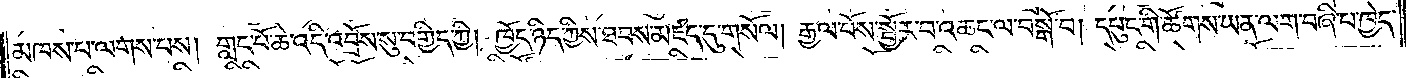མཁས་པ་ལགས་པས། གླང་པོ་ཆེ་འདི་འབྲོས་སུ་བགྱིད་ཀྱི། ཁྱོད་ཉིད་ཀྱིས་ཐབས་མཛད་དུ་གསོལ། རྒྱལ་པོས་སྦྱོར་བ་འཆང་ལ་བསྒོ་བ། དཔུང་གི་ཚོགས་ཡན་ལག་བཞི་པ་ཁྱེད་
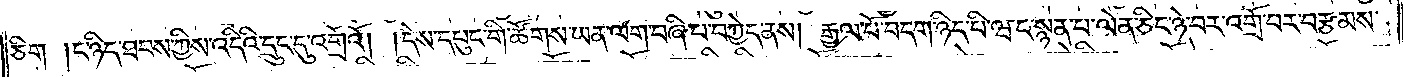ཅིག །ང་ཉིད་ཐབས་ཀྱིས་འདིའི་དྲུང་དུ་འགྲོའོ། །དེས་དཔུང་གི་ཚོགས་ཡན་ལག་བཞི་པ་བཀྱེད་ནས། རྒྱལ་པོ་བདག་ཉིད་པི་ཝང་སྙན་པ་ལེན་ཅིང་ཉེ་བར་འགྲོ་བར་བརྩམས་
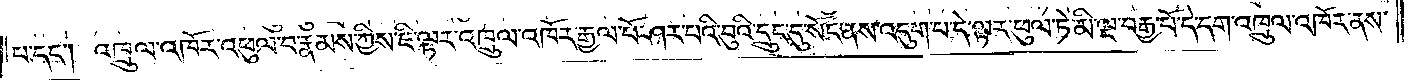པ་དང༌། འཁྲུལ་འཁོར་འཕུལ་བ་རྣམས་ཀྱིས་ཇི་ལྟར་འཁྲུལ་འཁོར་རྒྱལ་པོ་ཤར་པའི་བུའི་དྲུང་དུ་སོང་ནས་འདུག་པ་དེ་ལྟར་ཕུལ་ཏེ་མི་ལྔ་བརྒྱ་པོ་དེ་དག་འཁྲུལ་འཁོར་ནས་
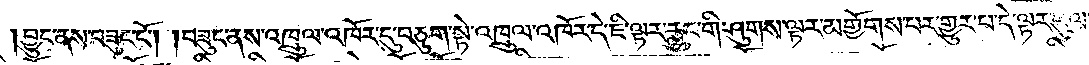བྱུང་ནས་བཟུང་ངོ༌། །བཟུང་ནས་འཁྲུལ་འཁོར་དུ་བཅུག་སྟེ་འཁྲུལ་འཁོར་དེ་ཇི་ལྟར་རླུང་གི་ཤུགས་ལྟར་མགྱོགས་པར་གྱུར་པ་དེ་ལྟར་ཕུལ་
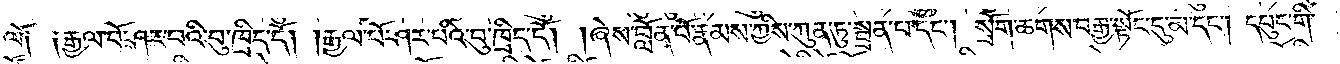ལོ༑ ༑རྒྱལ་པོ་ཤར་པའི་བུ་ཁྲིད་དོ། །རྒྱལ་པོ་ཤར་པའི་བུ་ཁྲིད་དོ། །ཞེས་བློན་པོ་རྣམས་ཀྱིས་ཀུན་ཏུ་སྦྲན་པ་དང༌། སྲོག་ཆགས་བརྒྱ་སྟོང་དུ་མ་དང༌། དཔུང་གི་
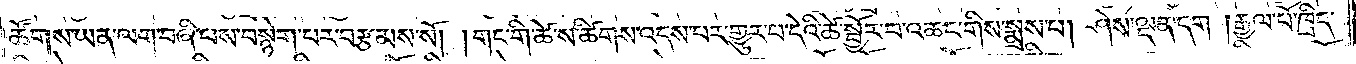ཚོགས་ཡན་ལག་བཞི་པས་བསྙེག་པར་བརྩམས་སོ། །གང་གི་ཚེ་ས་ཚིགས་འདས་པར་གྱུར་པ་དེའི་ཚེ་སྦྱོར་བ་འཆང་གིས་སྨྲས་པ། ཤེས་ལྡན་དག །རྒྱལ་པོ་ཁྲིད་
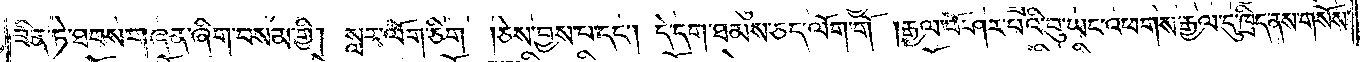ཟིན་ཏེ་ཐབས་གཞན་ཞིག་བསམ་གྱི། སླར་ལོག་ཅིག །ཅེས་བྱས་པ་དང༌། དེ་དག་ཐམས་ཅད་ལོག་གོ །རྒྱལ་པོ་ཤར་པའི་བུ་ཡང་འཕགས་རྒྱལ་དུ་ཁྲིད་ནས་གསོས་
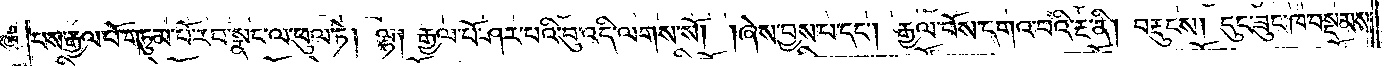པས་རྒྱལ་པོ་གཏུམ་པོ་རབ་སྣང་ལ་ཕུལ་ཏེ། ལྷ། རྒྱལ་པོ་ཤར་པའི་བུ་འདི་ལགས་སོ། །ཞེས་བྱས་པ་དང༌། རྒྱལ་པོས་དགའ་བའི་རྔ་ནི། བརྡུངས། དུང་ཟུང་ཁ་བསྡམས་
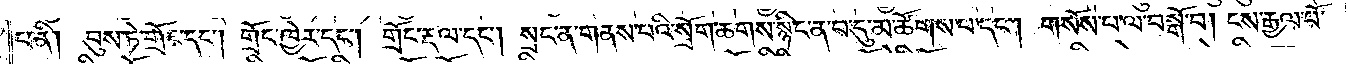པ་ནི། བུས་ཏེ་གྲོང་དང༌། གྲོང་ཁྱེར་དང༌། གྲོང་རྡལ་དང༌། སྲང་ན་གནས་པའི་སྲོག་ཆགས་སྙིང་ན་བ་དུ་མ་ཚོགས་པ་དང༌། གསོས་པ་ལ་བསྒོ་བ། ངས་རྒྱལ་པོ་
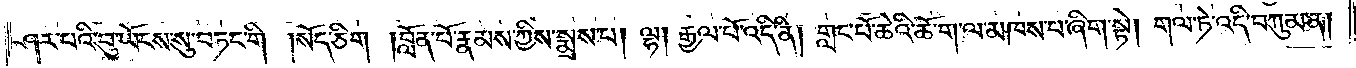ཤར་པའི་བུ་ཡོངས་སུ་བཏང་གི །སོད་ཅིག །བློན་པོ་རྣམས་ཀྱིས་སྨྲས་པ། ལྷ། རྒྱལ་པོ་འདི་ནི། གླང་པོ་ཆེའི་ཆོ་ག་ལ་མཁས་པ་ཞིག་སྟེ། གལ་ཏེ་འདི་བཀུམ་ན།
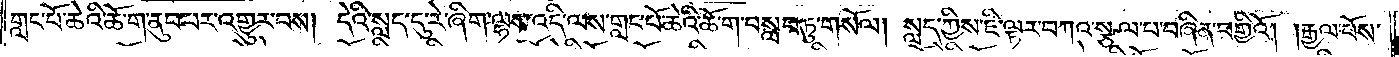གླང་པོ་ཆེའི་ཆོ་ག་ནུབ་པར་འགྱུར་བས། དེའི་སླད་དུ་རེ་ཞིག་ལྷས་འདི་ལས་གླང་པོ་ཆེའི་ཆོ་ག་བསླབ་ཏུ་གསོལ། སླད་ཀྱིས་ཇི་ལྟར་བཀའ་སྩལ་པ་བཞིན་བགྱིའོ། །རྒྱལ་པོས་
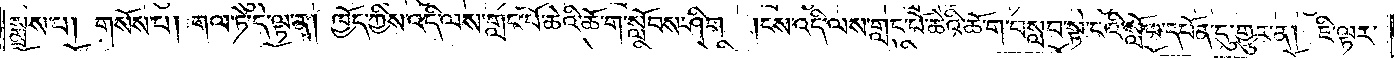སྨྲས་པ། གསོས་པ། གལ་ཏེ་དེ་ལྟ་ན། ཁྱོད་ཀྱིས་འདི་ལས་གླང་པོ་ཆེའི་ཆོ་ག་སློབས་ཤིག །ངས་འདི་ལས་གླང་པོ་ཆེའི་ཆོ་ག་བསླབ་སྟེ་ངའི་སློབ་དཔོན་དུ་གྱུར་ན། ཇི་ལྟར་
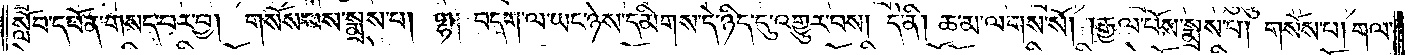སློབ་དཔོན་གསད་པར་བྱ། གསོས་པས་སྨྲས་པ། ལྷ། བདག་ལ་ཡང་ཉེས་དམིགས་དེ་ཉིད་དུ་འགྱུར་བས། དེ་ནི། ཆ་མ་ལགས་སོ། །རྒྱལ་པོས་སྨྲས་པ། གསོས་པ། གལ་
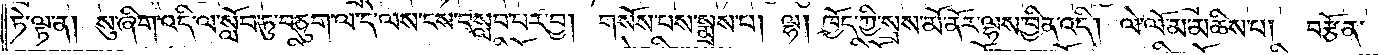ཏེ་ལྟ་ན། སུ་ཞིག་འདི་ལ་སློབ་ཏུ་བཅུག་ལ་དེ་ལས་ངས་བསླབ་པར་བྱ། གསོས་པས་སྨྲས་པ། ལྷ། ཁྱོད་ཀྱི་སྲས་མོ་ནོར་ལྷས་བྱིན་འདི། ལེ་ལོ་མ་མཆིས་པ། བརྩོན་
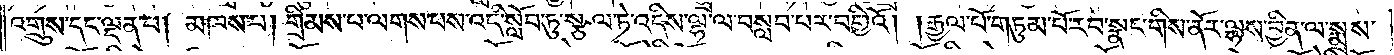འགྲུས་དང་ལྡན་པ། མཁས་པ། གྲིམས་པ་ལགས་པས་འདི་སློབ་ཏུ་སྩལ་ཏེ་འདིས་ལྷ་ལ་བསླབ་པར་བགྱིའོ། །རྒྱལ་པོ་གཏུམ་པོ་རབ་སྣང་གིས་ནོར་ལྷས་བྱིན་ལ་སྨྲས་
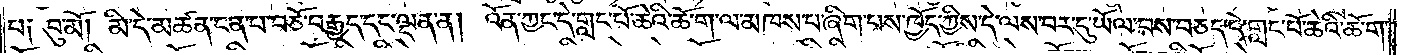པ༑ བུ་མོ། མི་དེ་མཚན་ངན་པ་བཅོ་བརྒྱད་དང་ལྡན་ན། འོན་ཀྱང་དེ་གླང་པོ་ཆེའི་ཆོ་ག་ལ་མཁས་པ་ཞིག་པས་ཁྱོད་ཀྱིས་དེ་ལས་བར་དུ་ཡོལ་བས་བཅད་དེ་གླང་པོ་ཆེའི་ཆོ་ག་
